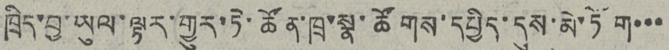ཁྲིད་བྱ་ཡུལ་ལྟར་གྱུར་ཏེ་ཚོན་ཁྲ་སྣ་ཚོགས་དཔྱིད་དུས་མེ་ཏོག་་་
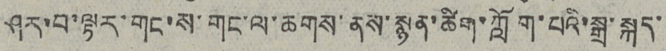ཤར་བ་ལྟར་གང་ས་གང་ལ་ཆགས་ནས་སྙན་ཚིག་ཀློག་པའི་སྒྲ་སྐད་
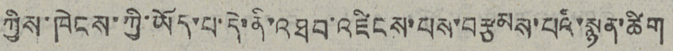ཀྱིས་ཁེངས་ཀྱི་ཡོད་པ་དེ་ནི་འཐབ་འཛིངས་པས་བརྩམས་པའི་སྙན་ཚིག
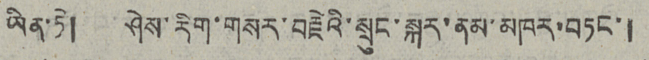ཡིན་ཏེ། ཤེས་རིག་གསར་བརྗེའི་སྲུང་སྐར་ནམ་མཁར་བཏང་།
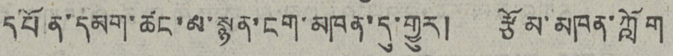དཔོན་དམག་ཚང་མ་སྙན་ངག་མཁན་དུ་གྱུར། རྩོམ་མཁན་ཀློག
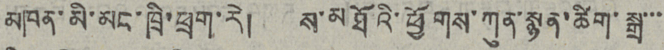མཁན་མི་མང་ཁྲི་ཕྲག་རེ།  ས་མཐོའི་ཕྱོགས་ཀུན་སྙན་ཚིག་སྒྲ་་་
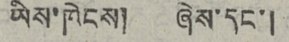ཡིས་ཁེངས། ཞེས་དང་།
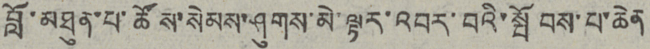བློ་མཐུན་པ་ཚོས་སེམས་ཤུགས་མེ་ལྟར་འབར་བའི་སྤོབས་པ་ཆེན
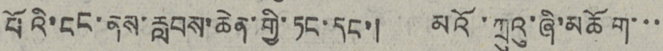པོའི་ངང་ནས་རླབས་ཆེན་གྱི་ཏང་དང་། མའོ་ཀྲུའུ་ཞི་མཆོག་་་
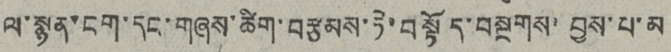ལ་སྙན་ངག་དང་གཞས་ཚིག་བརྩམས་ཏེ་བསྟོད་བསྔགས་བྱས་པ་མ
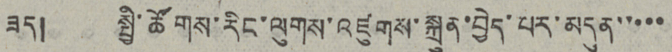ཟད། སྤྱི་ཚོགས་རིང་ལུགས་འཛུགས་སྐྲུན་བྱེད་པར་མདུན་་་་་
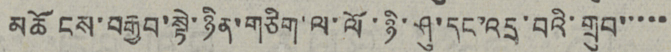མཆོངས་བརྒྱབ་སྟེ་ཉིན་གཅིག་ལ་ལོ་ཉི་ཤུ་དང་འདྲ་བའི་གྲུབ་་་་་
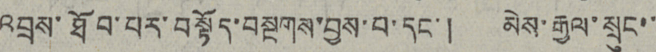འབྲས་ཐོབ་པར་བསྟོད་བསྔགས་བྱས་པ་དང་། མེས་རྒྱལ་སྲུང་་
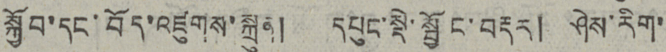སྐྱོབ་དང་བོད་འཛུགས་སྐྲུན། དཔུང་སྡེ་སྦྱོང་བརྡར། ཤེས་རིག་
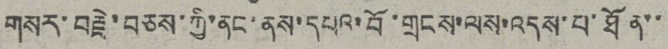གསར་བརྗེ་བཅས་ཀྱི་ནང་ནས་དཔའ་བོ་གྲངས་ལས་འདས་པ་ཐོན་་
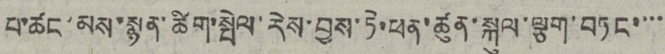པ་ཚང་མས་སྙན་ཚིག་སྤེལ་རེས་བྱས་ཏེ་ཕན་ཚུན་སྐུལ་ལྕག་བཏང་་་་
